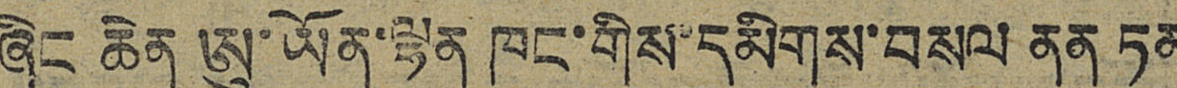ཞིང ཆེན ཨུ་ཡོན་ལྷན ཁང་གིས་དམིགས་བསལ ནན ཏན
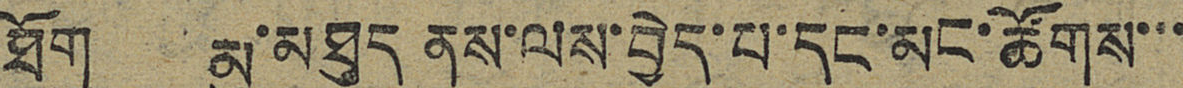ཐོག མུ་མཐུད ནས་ལས་བྱེད་པ་དང་མང་ཚོགས་་་
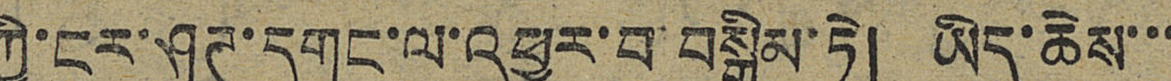ཀྱི་ངར་ཤུཊ་དགུང་ལ་འཕྱུར་བ་བསྒྲིམ་ཏེ། ཡིད་ཆེས་་་
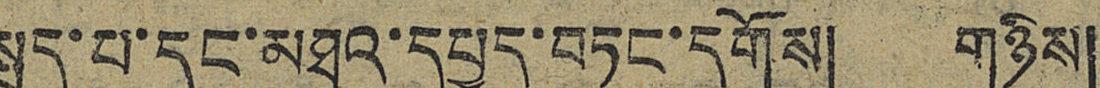སྤྲད་པ་དང་མཐའ་དཔྱད་བཏང་དགོས། གཉིས།
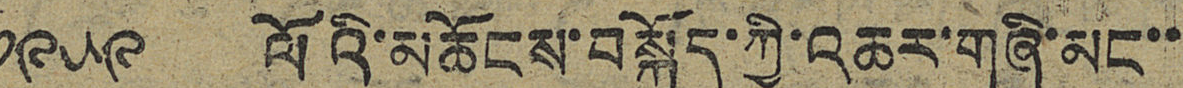༡༩༥༩ ལོའི་མཆོངས་བསྐྱོད་ཀྱི་འཆར་གཞི་མང་་
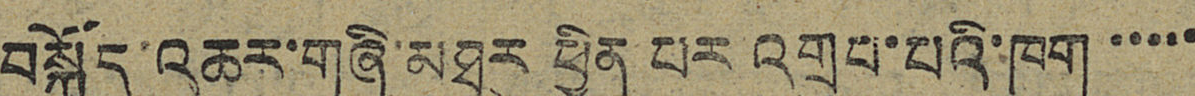བསྐྱོད་འཆར་གཞི་མཐར ཕྱིན པར འགྲུབ་པའི་ཁག་་་་་
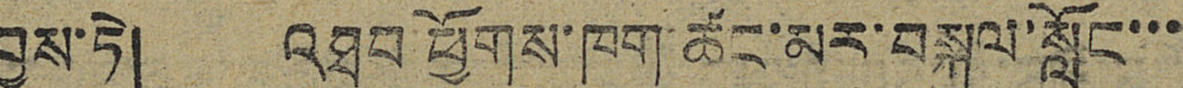བྱས་ཏེ། འཐབ ཕྱོགས་ཁག་ཚང་མར་བསྐུལ་སློང་་་
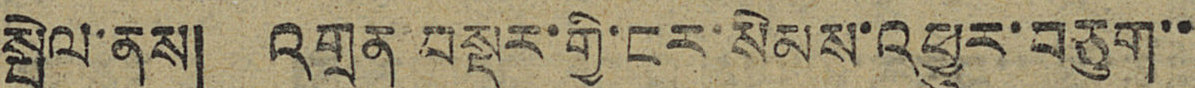སྤེལ་ནས། འགྲན བསྡུར་གྱི་ངར་སེམས་འཕྱུར་བཅུག་་
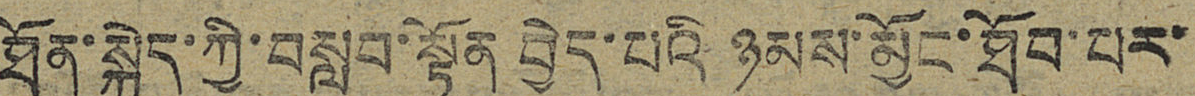ཐོན་སྐྱེད་ཀྱི་བསླབ་སྟོན བྱེད་པའི ཉམས་མྱོང་ཐོབ་པར་
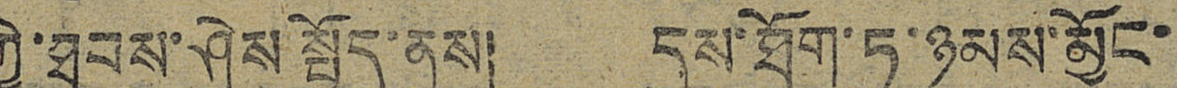ཀྱི་ཐབས་ཤེས སྤྱོད་ནས། དུས་ཐོག་ཏུ་ཉམས་མྱོང་
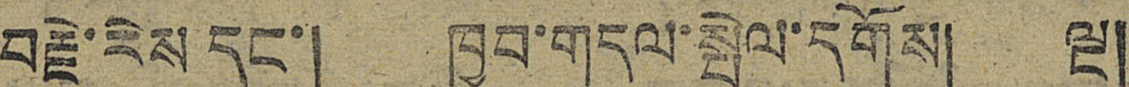བརྗེ་རེས དང་། ཁྱབ་གདལ་སྤེལ་དགོས། ལྔ།
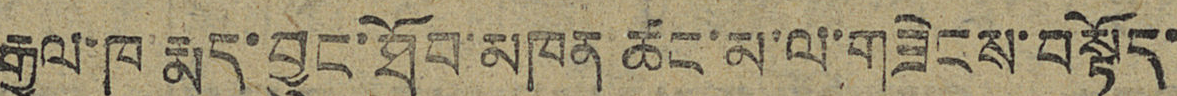རྒྱལ་ཁ རྨད་བྱུང་ཐོབ་མཁན ཚང་མ་ལ་གཟེངས་བསྟོད་
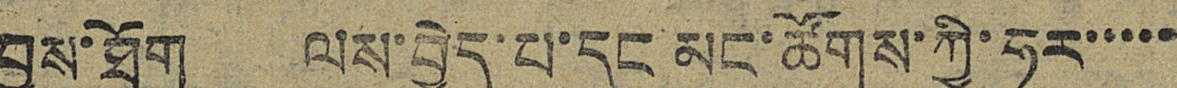བྱས་ཐོག ལས་བྱེད་པ་དང མང་ཚོགས་ཀྱི་ཧུར་་་་་
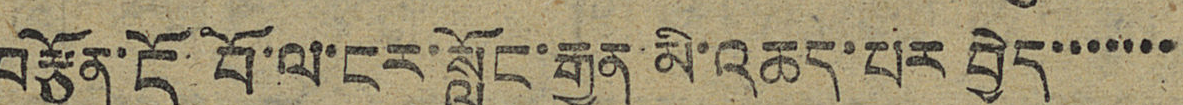བརྩོན་ངོ་བོ་ལ་ངར་སློང་རྒྱུན་མི་འཆད་པར བྱེད་་་་་་་
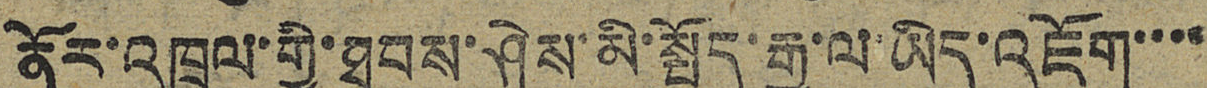ནོར་འཁྲུལ་གྱི་ཐབས་ཤེས་མི་སྤྱོད་རྒྱུ་ལ་ཡིད་འཇོག་་་་
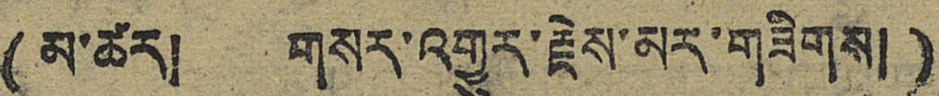(མ་ཚར། གསར་འགྱུར་རྗེས་མར་གཟིགས།)
